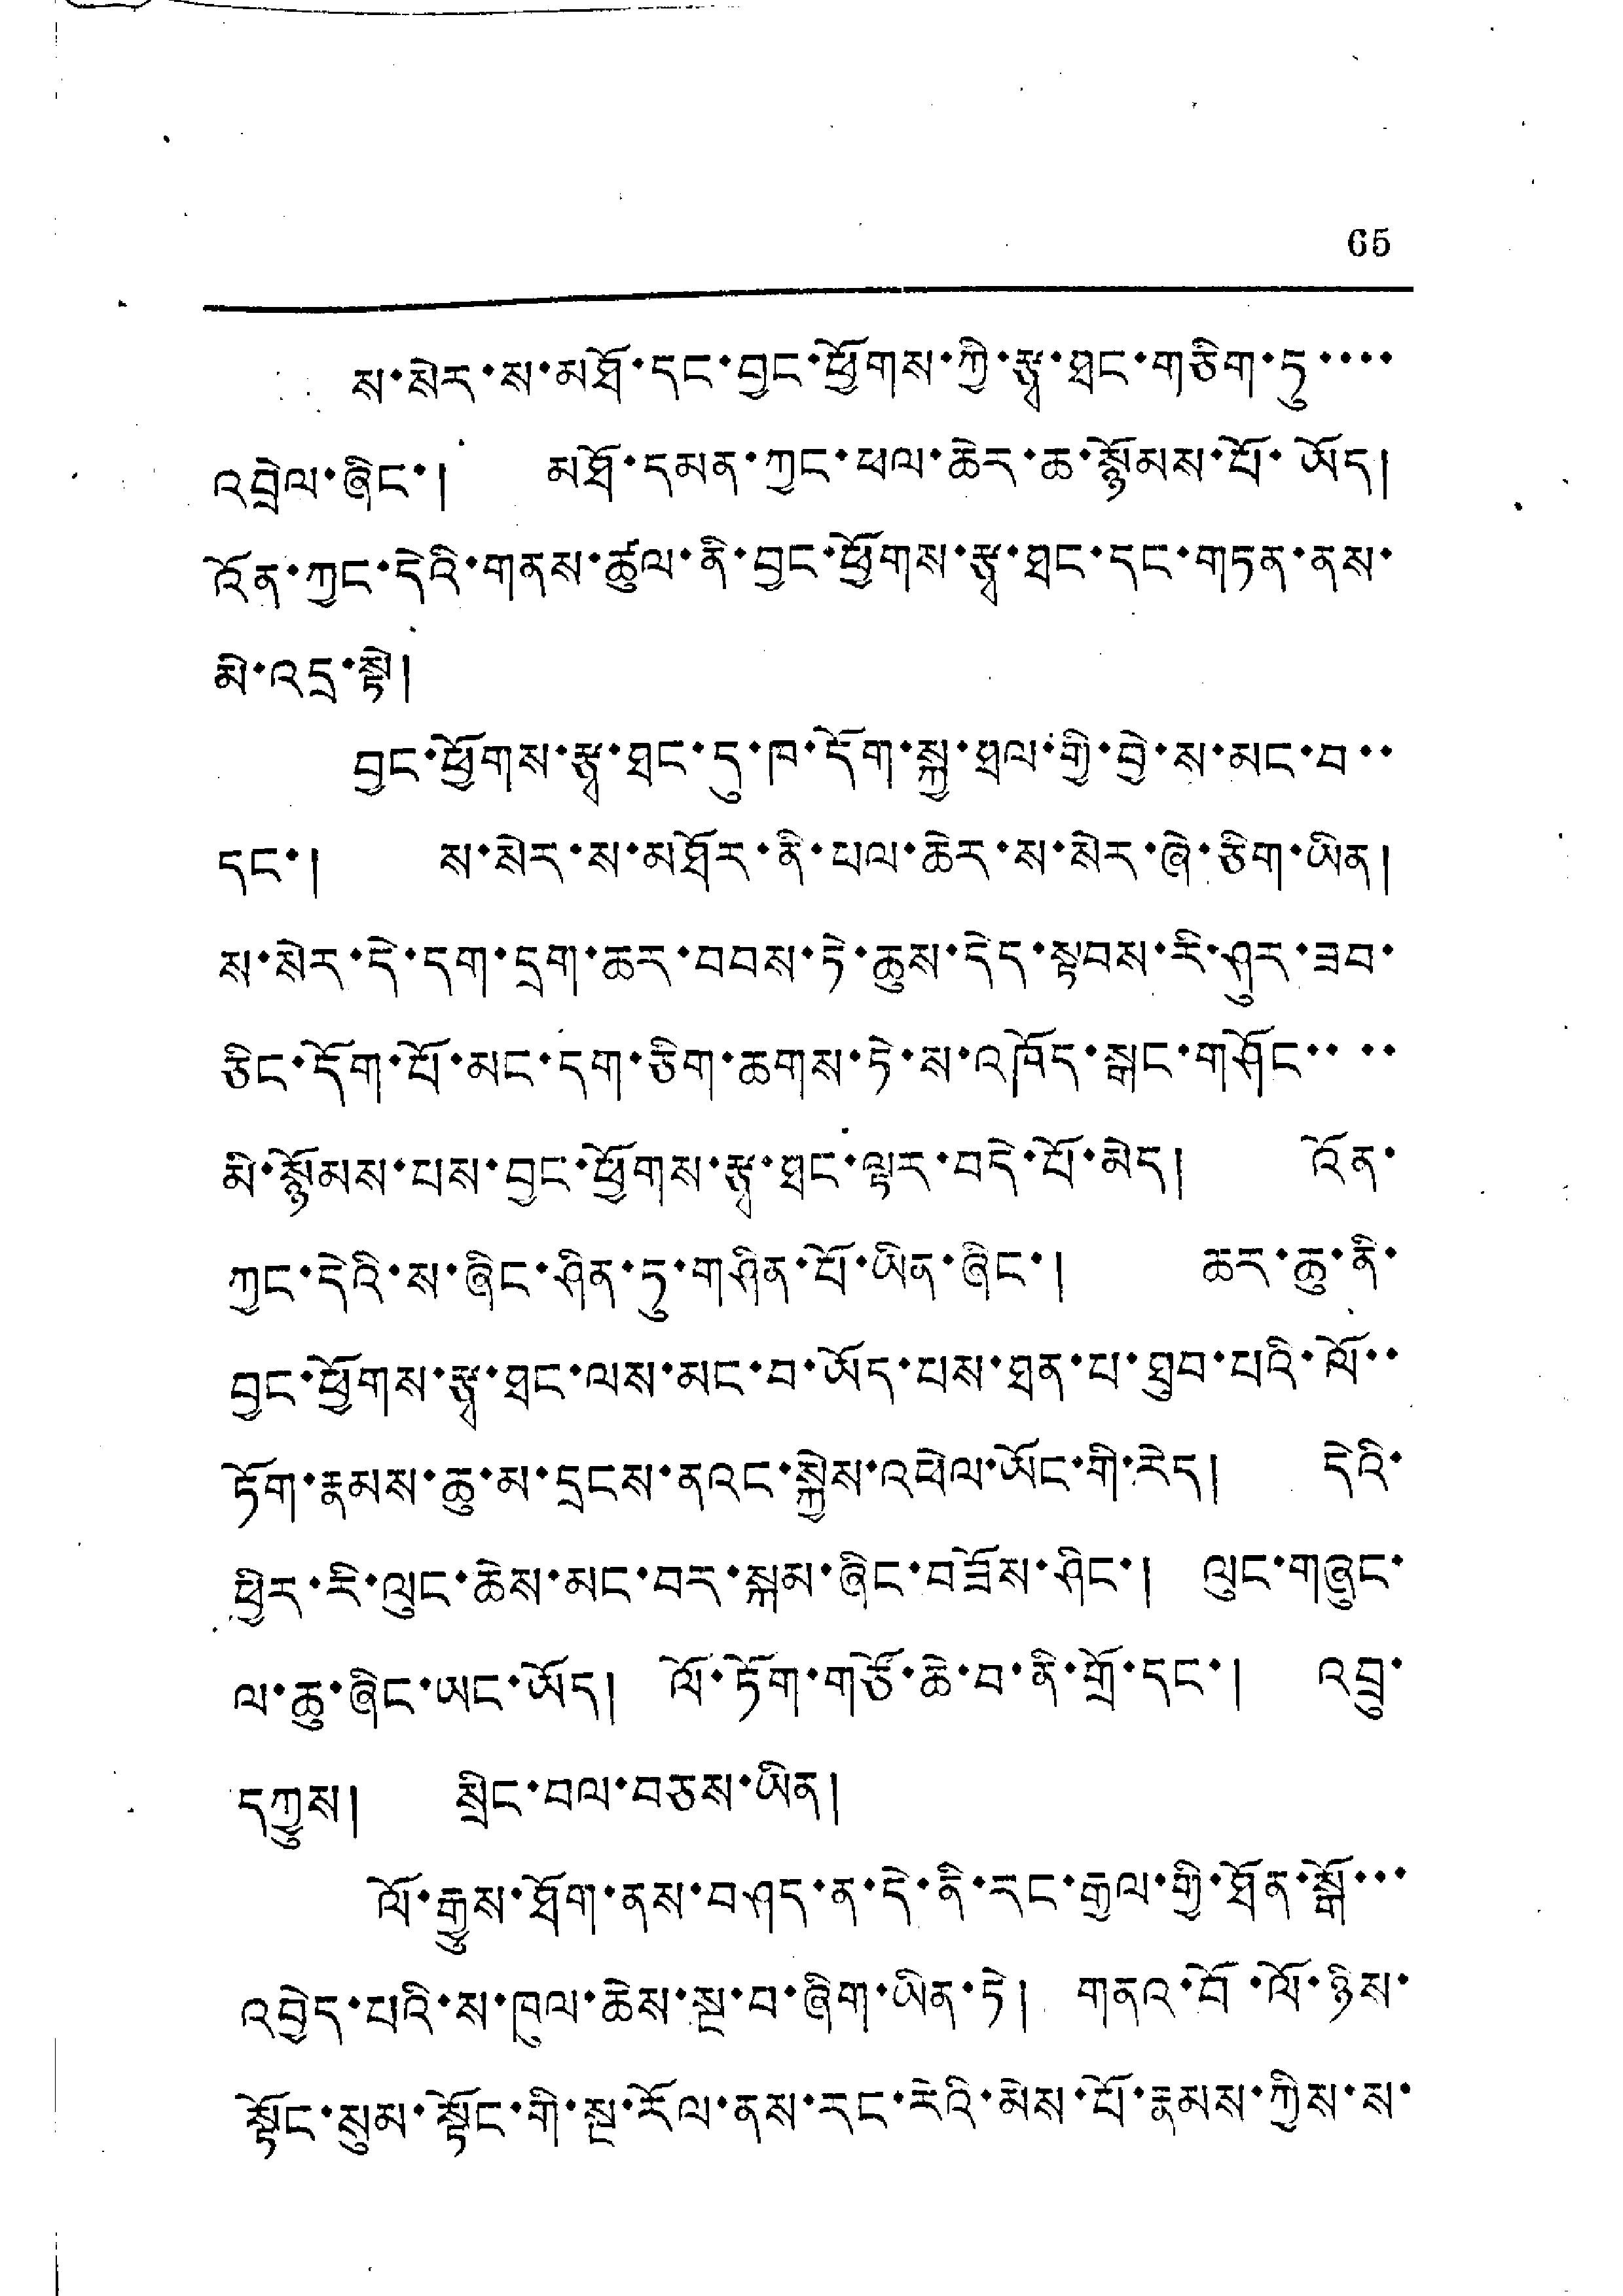65
ས་སེར་ས་མཐོ་དང་བྱང་ཕྱོགས་ཀྱི་རྩྭ་ཐང་གཅིག་ཏུ་་་་
འབྲེལ་ཞིང་། མཐོ་དམན་ཀྱང་ཕལ་ཆེར་ཆ་སྙོམས་པོ་ཡོད།
འོན་ཀྱང་དེའི་གནས་ཚུལ་ནི་བྱང་ཕྱོགས་རྩྭ་ཐང་དང་གཏན་ནས་
མི་འདྲ་སྟེ།
བྱང་ཕྱོགས་རྩྭ་ཐང་དུ་ཁ་དོག་སྐྱ་ཐལ་གྱི་བྱེ་ས་མང་བ་་
དང་། ས་སེར་ས་མཐོར་ནི་ཕལ་ཆེར་ས་སེར་ཞེ་ཅིག་ཡིན།
ས་སེར་དེ་དག་དྲག་ཆར་བབས་ཏེ་ཆུས་དེད་སྟབས་རི་ཤུར་ཟབ་
ཅིང་དོག་པོ་མང་དག་ཅིག་ཆགས་ཏེ་ས་འཁོད་སྒང་གཤོང་་་་
མི་སྙོམས་པས་བྱང་ཕྱོགས་རྩྭ་ཐང་ལྟར་བདེ་པོ་མེད། འོན་
ཀྱང་དེའི་ས་ཞིང་ཤིན་ཏུ་གཤིན་པོ་ཡིན་ཞིང་། ཆར་ཆུ་ནི་
བྱང་ཕྱོགས་རྩྭ་ཐང་ལས་མང་བ་ཡོད་པས་ཐན་པ་ཐུབ་པའི་ལོ་་
ཏོག་རྣམས་ཆུ་མ་དྲངས་ནའང་སྐྱེས་འཕེལ་ཡོང་གི་རེད། དེའི་
ཕྱིར་རི་ལུང་ཆེས་མང་བར་སྐམ་ཞིང་བཟོས་ཤིང་། ལུང་གཞུང་
ལ་ཆུ་ཞིང་ཡང་ཡོད། ལོ་ཏོག་གཙོ་ཆེ་བ་ནི་གྲོ་དང་། འབྲུ་
དཀྱུས། སྲིང་བལ་བཅས་ཡིན།
ལོ་རྒྱུས་ཐོག་ནས་བཤད་ན་དེ་ནི་རང་རྒྱལ་གྱི་ཐོན་སྒོ་་་
འབྱེད་པའི་ས་ཁུལ་ཆེས་སྔ་བ་ཞིག་ཡིན་ཏེ། གནའ་བོ་ལོ་ཉིས་
སྟོང་སུམ་སྟོང་གི་སྔ་རོལ་ནས་རང་རེའི་མེས་པོ་རྣམས་ཀྱིས་ས་
